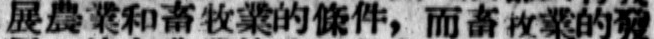展農業和畜牧業的條件，而畜牧業的發
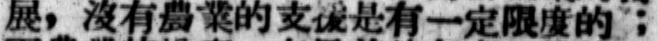展，沒有農業的支援是有一定限度的；
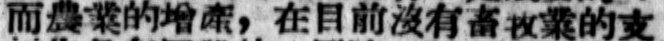而農業的增產，在目前沒有畜牧業的支
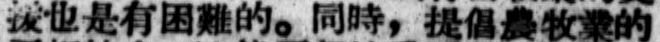援也是有困難的。同時，提倡農牧業的
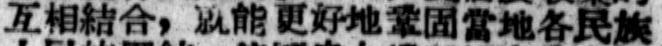互相結合，就能更好地鞏固當地各民族
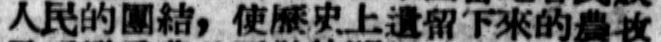人民的團結，使歷史上遺留下來的農牧
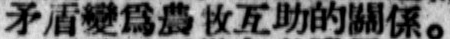矛盾變爲農牧互助的關係。
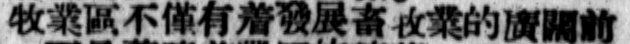牧業區不僅有着發展畜牧業的廣闊前
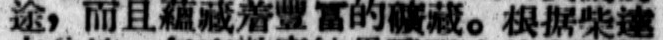途，而且蘊藏着豐富的礦藏。根據柴達
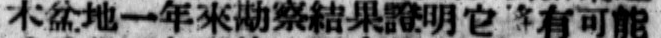木盆地一年來勘察結果證明它將有可能
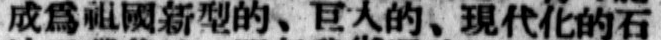成爲祖國新型的、巨大的、現代化的石
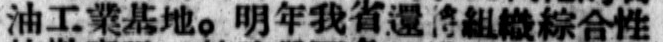油工業基地。明年我省還將組織綜合性
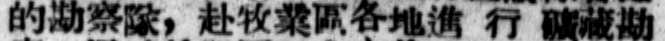的勘察隊，赴牧業區各地進 行 礦藏勘
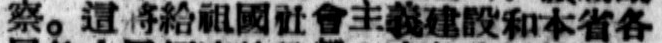察。這將給祖國社會主義建設和本省各
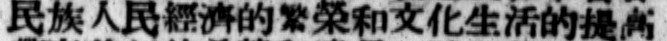民族人民經濟的繁榮和文化生活的提高
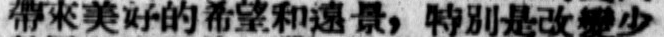帶來美好的希望和遠景，特別是改變少
